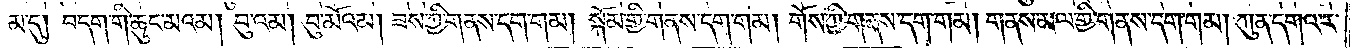མ་དུ། བདག་གི་ཆུང་མའམ། བུའམ། བུ་མོའམ། ཟས་ཀྱི་གནས་དག་གམ། སྐོམ་གྱི་གནས་དག་གམ། གོས་ཀྱི་གནས་དག་གམ། གནས་མལ་གྱི་གནས་དག་གམ། ཀུན་དགའ་ར་
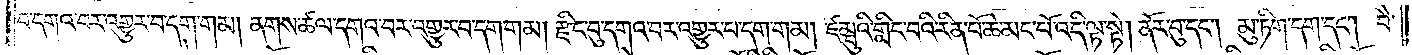བ་དགའ་བར་འགྱུར་བ་དག་གམ། ནགས་ཚལ་དགའ་བར་འགྱུར་བ་དག་གམ། རྫིང་བུ་དགའ་བར་འགྱུར་བ་དག་གམ། ཛམྦུའི་གླིང་བའི་རིན་པོ་ཆེ་མང་པོ་འདི་ལྟ་སྟེ། ནོར་བུ་དང༌། མུ་ཏིག་དག་དང༌། བཻ་
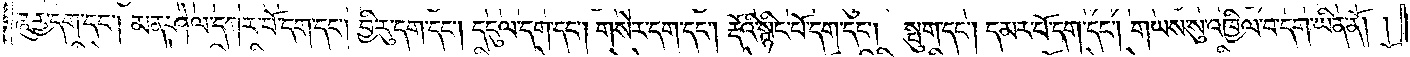ཌཱུཪྻ་དག་དང༌། མན་ཤེལ་དཀར་པོ་དག་དང༌། བྱི་རུ་དག་དང༌། དངུལ་དག་དང༌། གསེར་དག་དང༌། རྡོའི་སྙིང་པོ་དག་དང༌། སྦུག་དང༌། དམར་པོ་དག་དང༌། གཡས་སུ་འཁྱིལ་བ་དག་ཡིན་ནོ། །
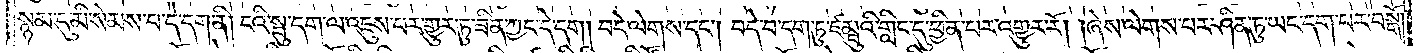སྙམ་དུ་མི་སེམས་པ་དེ་དག་ནི། ངའི་སྦུ་དག་ལ་འཇུས་པར་གྱུར་ཏུ་ཟིན་ཀྱང་དེ་དག །བདེ་ལེགས་དང༌། བདེ་བ་དག་ཏུ་ཛམྦུའི་གླིང་དུ་ཕྱིན་པར་འགྱུར་རོ། །ཞེས་ལེགས་པར་ཤིན་ཏུ་ཡང་དག་པར་བསྒོ།
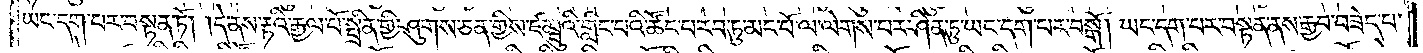ཡང་དག་པར་བསྟན་ཏོ། །དེ་ནས་རྟའི་རྒྱལ་པོ་སྤྲིན་གྱི་ཤུགས་ཅན་གྱིས་ཛམྦུའི་གླིང་པའི་ཚོང་པ་རབ་ཏུ་མང་པོ་ལ་ལེགས་པར་ཤིན་ཏུ་ཡང་དག་པར་བསྒོ། ཡང་དག་པར་བསྟན་ནས་རྒྱབ་བཟེད་པ་
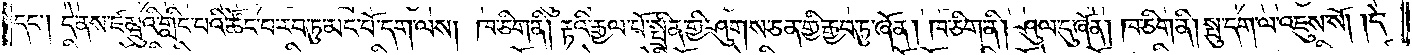དང༌། དེ་ནས་ཛམྦུའི་གླིང་པའི་ཚོང་པ་རབ་ཏུ་མང་པོ་དག་ལས། ཁ་ཅིག་ནི། རྟའི་རྒྱལ་པོ་སྤྲིན་གྱི་ཤུགས་ཅན་གྱི་རྒྱབ་ཏུ་ཞོན། ཁ་ཅིག་ནི། ཤུལ་དུ་ཞོན། ཁ་ཅིག་ནི། སྤུ་དག་ལ་འཇུས་སོ། །དེ་
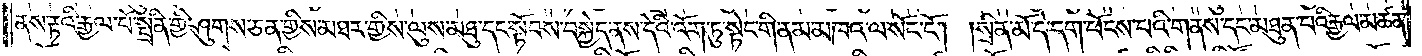ནས་རྟའི་རྒྱལ་པོའི་སྤྲིན་གྱི་ཤུགས་ཅན་གྱིས་མཐར་གྱིས་ལུས་མཐུ་དང་སྟོབས་བསྐྱེད་ནས་དེའི་འོག་ཏུ་སྟེང་གི་ནམ་མཁའ་ལ་སོང་ངོ༌། །སྲིན་མོ་དེ་དག་ཕོངས་པའི་གནས་དང་མཐུན་པའི་རྒྱལ་མཚན་
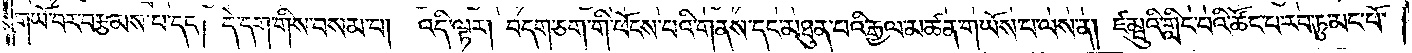གཡོ་བར་བརྩམས་པ་དང༌། དེ་དག་གིས་བསམ་པ། འདི་ལྟར། བདག་ཅག་གི་ཕོངས་པའི་གནས་དང་མཐུན་པའི་རྒྱལ་མཚན་གཡོས་པ་ལས་ན། ཛམྦུའི་གླིང་པའི་ཚོང་པ་རབ་ཏུ་མང་པོ་
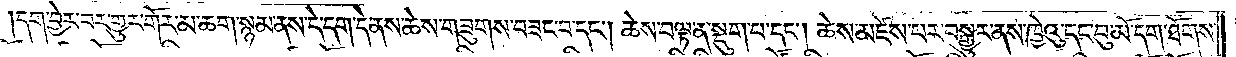དག་བྱེར་བར་གྱུར་གོར་མ་ཆག་སྙམ་ནས་དེ་དག་དེ་ནས་ཆེས་གཟུགས་བཟང་བ་དང༌། ཆེས་བལྟ་ན་སྡུག་པ་དང༌། ཆེས་མཛེས་པར་བསྒྱུར་ནས་ཁྱེའུ་དང་བུ་མོ་དག་ཐོགས་
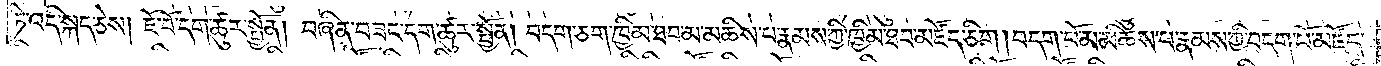ཏེ་འདི་སྐད་ཅེས། ཇོ་བོ་དག་ཚུར་སྤྱོན། བཞིན་བཟང་དག་ཚུར་སྤྱོན། བདག་ཅག་ཁྱིམ་ཐབ་མ་མཆིས་པ་རྣམས་ཀྱི་ཁྱིམ་ཐབ་མཛོད་ཅིག །བདག་པོ་མ་མཆིས་པ་རྣམས་ཀྱི་བདག་པོ་མཛོད་
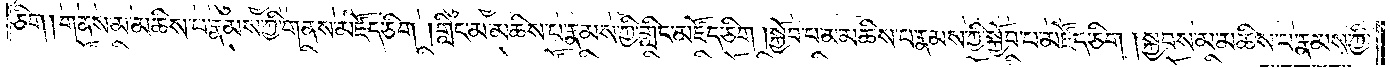ཅིག །གནས་མ་མཆིས་པ་རྣམས་ཀྱི་གནས་མཛོད་ཅིག །གླིང་མ་མཆིས་པ་རྣམས་ཀྱི་གླིང་མཛོད་ཅིག །སྐྱོབ་པ་མ་མཆིས་པ་རྣམས་ཀྱི་སྐྱོབ་པ་མཛོད་ཅིག །སྐྱབས་མ་མཆིས་པ་རྣམས་ཀྱི་
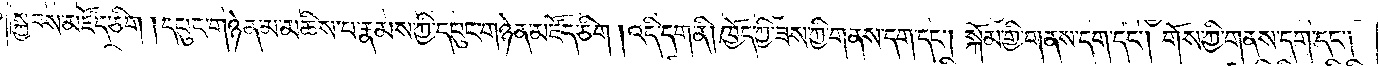སྐྱབས་མཛོད་ཅིག །དཔུང་གཉེན་མ་མཆིས་པ་རྣམས་ཀྱི་དཔུང་གཉེན་མཛོད་ཅིག །འདི་དག་ནི། ཁྱོད་ཀྱི་ཟས་ཀྱི་གནས་དག་དང༌། སྐོམ་གྱི་གནས་དག་དང༌། གོས་ཀྱི་གནས་དག་དང༌།
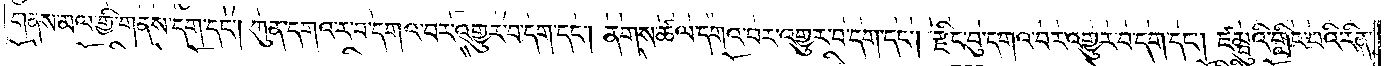གནས་མལ་གྱི་གནས་དག་དང༌། ཀུན་དགའ་ར་བ་དགའ་བར་འགྱུར་བ་དག་དང༌། ནགས་ཚལ་དགའ་བར་འགྱུར་བ་དག་དང༌། རྫིང་བུ་དགའ་བར་འགྱུར་བ་དག་དང༌། ཛམྦུའི་གླིང་པའི་རིན་
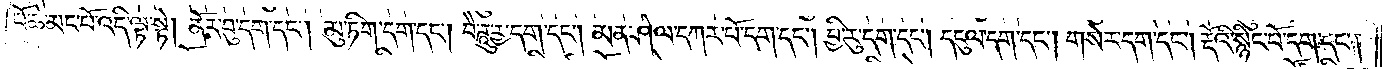པོ་ཆེ་མང་པོ་འདི་ལྟ་སྟེ། ནོར་བུ་དག་དང༌། མུ་ཏིག་དག་དང༌། བཻ་ཌཱུཪྻ་དག་དང༌། མན་ཤེལ་དཀར་པོ་དག་དང༌། བྱི་རུ་དག་དང༌། དངུལ་དག་དང༌། གསེར་དག་དང༌། རྡོའི་སྙིང་པོ་དག་དང༌།
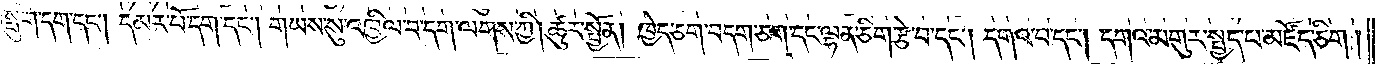སྤུག་དག་དང༌། དམར་པོ་དག་དང༌། གཡས་སུ་འཁྱིལ་བ་དག་ལགས་ཀྱི། ཚུར་སྤྱོན། ཁྱེད་ཅག་བདག་ཅག་དང་ལྷན་ཅིག་རྩེ་བ་དང༌། དགའ་བ་དང༌། དགའ་མགུར་སྤྱད་པ་མཛོད་ཅིག །
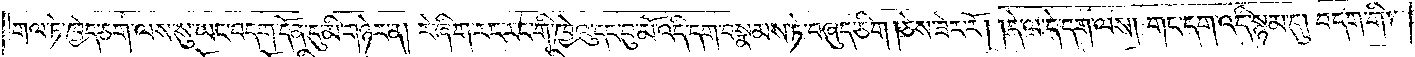གལ་ཏེ་ཁྱེད་ཅག་ལས་སུ་ཡང་བདག་དོན་དུ་མི་གཉེར་ན། རེ་ཞིག་རང་རང་གི་ཁྱེའུ་དང་བུ་མོ་འདི་དག་བསྣམས་ཏེ་བཞུད་ཅིག །ཅེས་ཟེར་རོ། །དེ་ལ་དེ་དག་ལས། གང་དག་འདི་སྙམ་དུ། བདག་གི་
